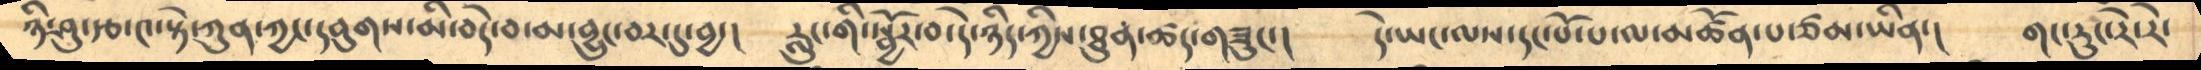ཉི་ཤུ་རྩ་༤་སྟེ་ཀུན་ཀྱང་དབུགས་མི་བདེ་བ་མ་བྱུང་བར་དུ་བྱ་།      རླུང་གི་སྦྱོར་བ་དེ་ཉིད་ཀྱིས་ཐུན་ཚད་གཟུང་།    དེ་ཡང་ལས་དང་པོ་པ་ལ་མཚོན་པ་ཙམ་ཡིན་།    གང་རུང་རེ་རེ་
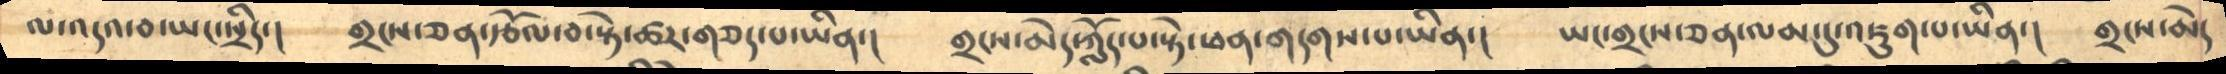ལ་འདའ་བ་ཡང་སྲིད་།      གྲངས་ཅན་རྩོལ་བ་སྟེ་ཚར་གཅད་པ་ཡིན་།       གྲངས་མེད་ཀློད་པ་སྟེ་ཕན་གདགས་པ་ཡིན་།      ཡང་གྲངས་ཅན་ལམ་དུ་འཇུག་པ་ཡིན་།    གྲངས་མེད
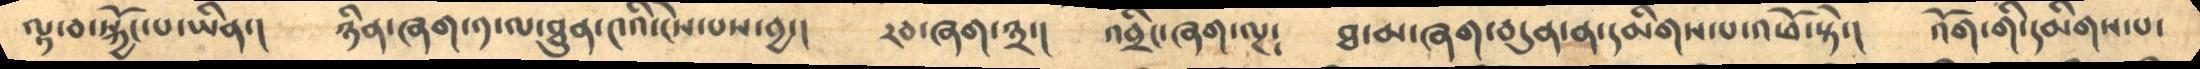ལྟ་བ་སྐྱོང་པ་ཡིན་།     ཉིན་ཞག་༡་ལ་ཐུན་༤འི་ངེས་པས་བྱ་།      རབ་ཞག་༣་།      འབྲིང་ཞག་ལྔ༴      ཐ་མ་ཞག་བདུན་ན་དམིགས་པ་འཕོ་སྟེ་།       འོག་གི་དམིགས་པ་
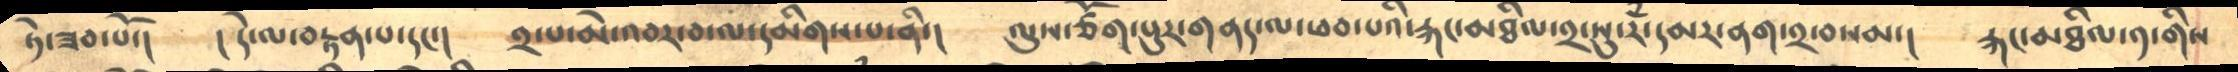ཏེ་ཟབ་པོ་།      ། དེ་ལ་བརྟན་པ་དང་།     ༢་པ་མེ་འབར་བ་ལ་དམིགས་པ་ནི་།     ལུས་ཙོག་པུར་གནད་ལ་ཕབ་པའི་རྐང་མཐིལ་༢་སུ་རཾ་དམར་ནག་༢་བསམ་།      རྐང་མཐིལ་༡་གིས
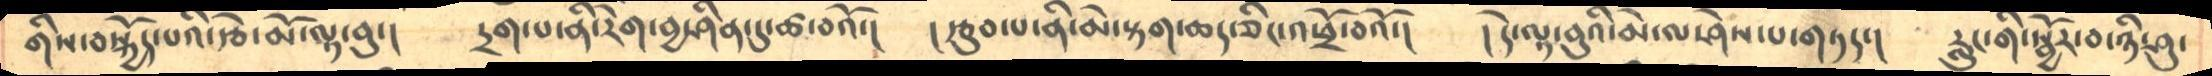གིས་བསྐྱོད་པའི་རྩེ་མོ་ལྟ་བུ་།      དྲག་པ་ནི་རེག་བྱ་ཤིན་དུ་ཚ་བའོ་།      །རྩུབ་པ་ནི་མེ་སྟག་ཆད་ཅིང་འཕྲོ་བའོ་།     །དེ་ལྟ་བུའི་མེ་ལ་ཤེས་པ་གཏད་།     རླུང་གི་སྦྱོར་བ་ཉི་ཤུ་
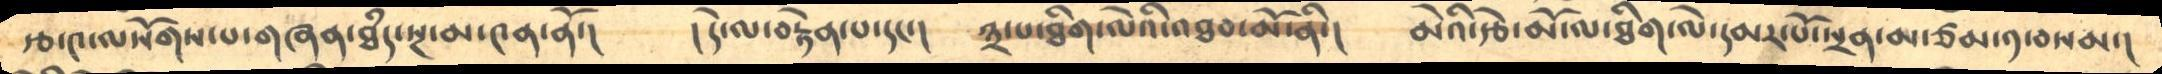རྩ་༤་ལ་སོགས་པ་གཞན་ཐཾད་སྔ་མ་༤ན་ནོ་།     །དེ་ལ་བརྟེན་པ་དང་།      ༣་པ་ཐིག་ལེའི་འཐབ་མོ་ནི་།     མེའི་རྩེ་མོ་ལ་ཐིག་ལེ་དམར་པོ་སྲན་མ་ཙམ་༡་བསམ་།
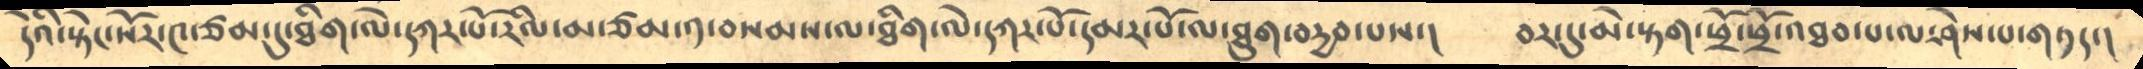དེའི་སྟེང་སོར་༤་ཙམ་དུ་ཐིག་ལེ་དཀར་པོ་རིལ་མ་ཙམ་༡་བསམས་ལ་ཐིག་ལེ་དཀར་པོ་དམར་པོ་ལ་ཐུག་བདྱབ་པས་།     བར་དུ་མེ་སྟག་ཕྲོ་ཕྲོ་འཐབ་པ་ལ་ཤེས་པ་གཏད་།
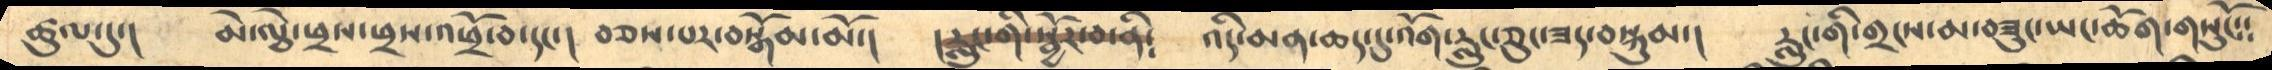ཚུལ་དུ་།     མེ་ལྕེ་ཕྲས་ཕྲས་འཕྲོ་བ་དང་།   བཅས་པར་བསྒོམ་མོ་།     །རླུང་གི་སྦྱོང་བ་ནི༴       འདི་མན་ཆད་དུ་འོག་རླུང་ཅུང་ཟད་བསྐུམ་།     རླུང་གི་གྲངས་མ་བཟུང་ཡང་ཆོག་གསུངོ༴༴
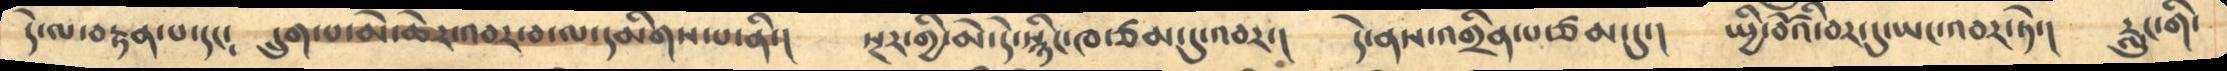དེ་ལ་བརྟན་པ་དང༴      དྲུག་པ་མེ་ཆེར་འབར་བ་ལ་དམིགས་པ་ནི་།     སྔར་གྱི་མེ་དེ་སྙིང་ཁ་ཙམ་དུ་འབར་།     དེ་ནས་འགྲིན་པ་ཙམ་དུ་།     སྤྱི་བོའི་བར་དུ་ཡང་འབར་ཏེ་།     རླུང་གི་
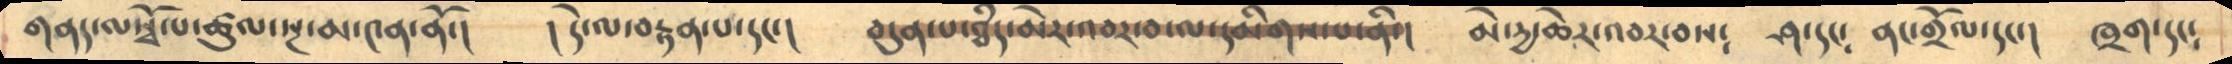གནད་ལསྭོ་པ་ཚུལ་སྔ་མ་༤ན་ནོ་།     ། དེ་ལ་བརྟན་པ་དང་།    བདུན་པ་ཐཾད་མེར་འབར་བ་ལ་དམིགས་པ་ནི་།    མེ་དྱ་ཆེར་འབར་བས༴     ཤ་དང༴    ནང་གྲོལ་དང་།     ཁྲག་དང༴
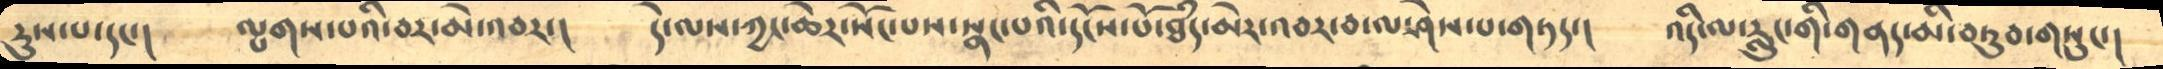རུས་པ་དང་།     ལྤགས་པའི་བར་མེ་འབར་།     དེ་ལས་ཀྱང་ཆེར་སོང་པས་སྣང་པའི་དངོས་པོ་ཐཾད་མེར་འབར་བ་ལ་ཤེས་པ་གཏད་།     འདི་ལ་རླུང་གི་གནད་མི་བཏུབ་གསུང་།
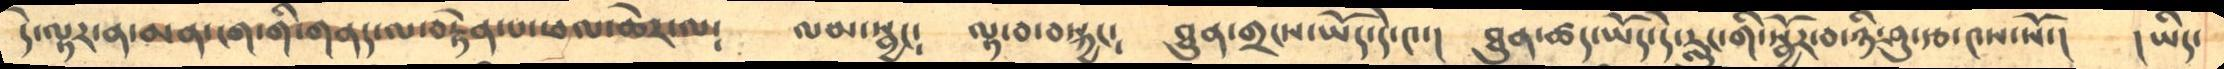དེ་ལྟར་ན་མན་ངག་གི་གནད་ལ་བརྟེན་པ་ཕལ་ཆེར་ལ༴     ལམ་སྦྱང༴     ལྟ་བ་བསྐྱང༴     ཐུན་གྲངས་ཡོད་དེ་༤་།      ཐུན་ཚད་ཡོད་དེ་རླུང་གི་སྦྱོར་བ་ཉི་ཤུ་རྩ་༤ས་སོ་།     །ཡིད་
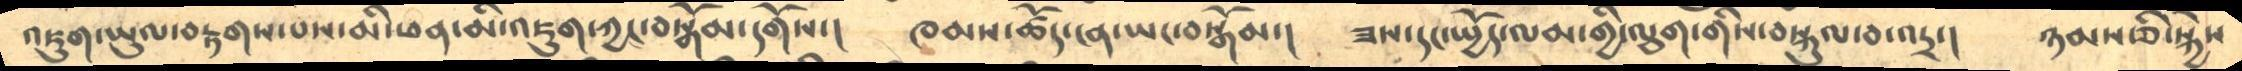འཇུག་ཡུལ་བརྟགས་པས་མི་ཕན་མི་འཇུག་ཀྱང་བསྒོམ་དགོས་།     ཁམས་ཚོད་ངན་ཡང་བསྒོམ་།     ཟས་དང་སྤྱོད་ལམ་གྱི་ལྕག་གིས་བསྐུལ་བ་འདྲ་།    ཉམས་ཅི་སྐྱེས
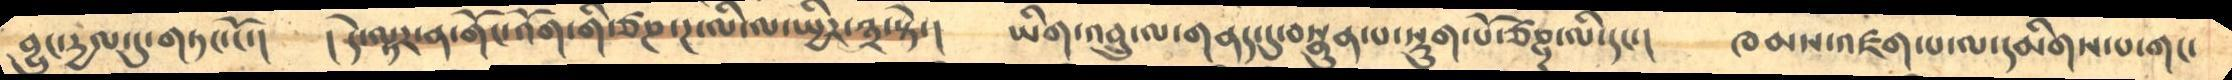བྱུང་དྱལ་དུ་གཏང་ངོ་།     །དེ་ལྟར་ན་གོང་འོག་གི་ཙཎ་ཌ་ལི་ལ་སྤྱིར་༣་སྟེ་།      ཡིག་འབྲུ་ལ་གནད་དུ་བསྣུན་པ་སྡུག་པོ་ཙཎྜ་ལི་དང་།    ཁམས་འཛག་པ་ལ་དམིགས་པ་གང་
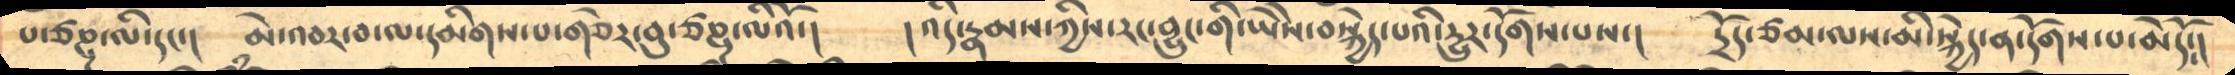པ་ཙཎྜ་ལི་དང་།      མེ་འབར་བ་ལ་དམིགས་པ་གཅེར་བུ་ཙཎྜ་ལིའོ་།       །འདི་རྣམས་ཀྱིས་རང་བྱུང་གི་ཡཻས་བསྐྱེད་པའི་དྱུར་དོགས་པས་།     དྲོད་ཙམ་ལས་མི་སྐྱེད་ན་དོགས་པ་མེདོ༴།
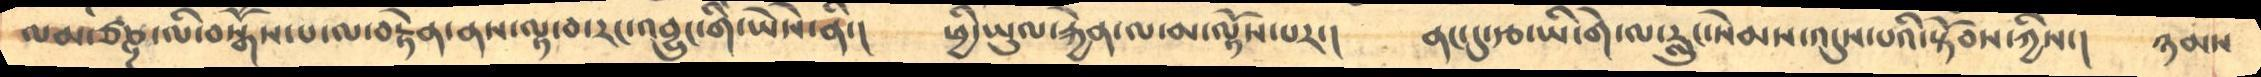ལམ་ཙཎྜ་ལི་བསྒོས་པ་ལ་བརྟེན་ནས་ལྟ་བ་རང་བྱུང་གི་ཡཻས་ནི་།     ཕྱི་ཡུལ་རྐྱེན་ལ་མ་ལྟོས་པར་།     ནང་དུ་རྩ་ཡི་གེ་ལ་རླུང་སེམས་འདུས་པའི་སྟོབས་ཀྱིས་།    ཉམས
